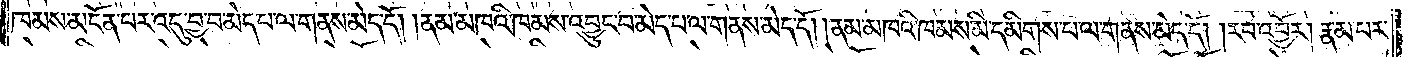ཁམས་མངོན་པར་འདུ་བྱ་བ་མེད་པ་ལ་གནས་མེད་དོ། །ནམ་མཁའི་ཁམས་འབྱུང་བ་མེད་པ་ལ་གནས་མེད་དོ། །ནམ་མཁའི་ཁམས་མི་དམིགས་པ་ལ་གནས་མེད་དོ། །རབ་འབྱོར། རྣམ་པར་
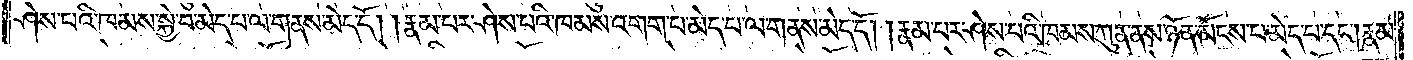ཤེས་པའི་ཁམས་སྐྱེ་བ་མེད་པ་ལ་གནས་མེད་དོ། །རྣམ་པར་ཤེས་པའི་ཁམས་འགག་པ་མེད་པ་ལ་གནས་མེད་དོ། །རྣམ་པར་ཤེས་པའི་ཁམས་ཀུན་ནས་ཉོན་མོངས་པ་མེད་པ་དང༌། རྣམ་
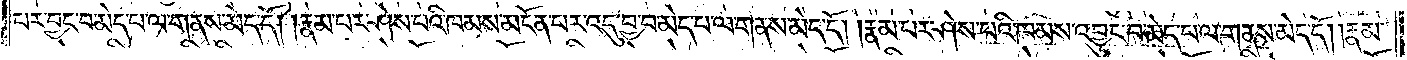པར་བྱང་བ་མེད་པ་ལ་གནས་མེད་དོ། །རྣམ་པར་ཤེས་པའི་ཁམས་མངོན་པར་འདུ་བྱ་བ་མེད་པ་ལ་གནས་མེད་དོ། །རྣམ་པར་ཤེས་པའི་ཁམས་འབྱུང་བ་མེད་པ་ལ་གནས་མེད་དོ། །རྣམ་
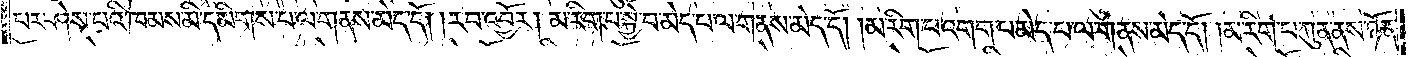པར་ཤེས་པའི་ཁམས་མི་དམིགས་པ་ལ་གནས་མེད་དོ། །རབ་འབྱོར། མ་རིག་པ་སྐྱེ་བ་མེད་པ་ལ་གནས་མེད་དོ། །མ་རིག་པ་འགག་པ་མེད་པ་ལ་གནས་མེད་དོ། །མ་རིག་པ་ཀུན་ནས་ཉོན་
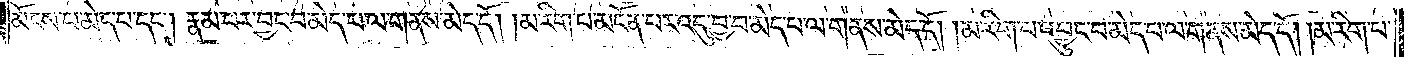མོངས་པ་མེད་པ་དང༌། རྣམ་པར་བྱང་བ་མེད་པ་ལ་གནས་མེད་དོ། །མ་རིག་པ་མངོན་པར་འདུ་བྱ་བ་མེད་པ་ལ་གནས་མེད་དོ། །མ་རིག་པ་འབྱུང་བ་མེད་པ་ལ་གནས་མེད་དོ། །མ་རིག་པ་
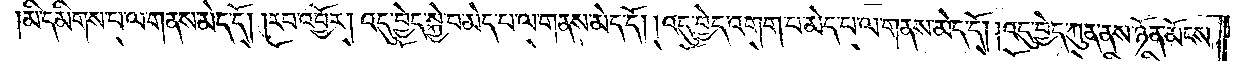མི་དམིགས་པ་ལ་གནས་མེད་དོ། །རབ་འབྱོར། འདུ་བྱེད་སྐྱེ་བ་མེད་པ་ལ་གནས་མེད་དོ། །འདུ་བྱེད་འགག་པ་མེད་པ་ལ་གནས་མེད་དོ། །འདུ་བྱེད་ཀུན་ནས་ཉོན་མོངས་
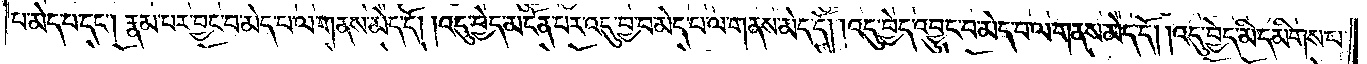པ་མེད་པ་དང༌། རྣམ་པར་བྱང་བ་མེད་པ་ལ་གནས་མེད་དོ། །འདུ་བྱེད་མངོན་པར་འདུ་བྱ་བ་མེད་པ་ལ་གནས་མེད་དོ། །འདུ་བྱེད་འབྱུང་བ་མེད་པ་ལ་གནས་མེད་དོ། །འདུ་བྱེད་མི་དམིགས་པ་
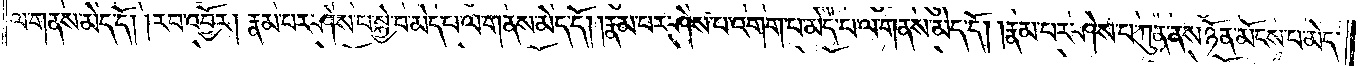ལ་གནས་མེད་དོ། །རབ་འབྱོར། རྣམ་པར་ཤེས་པ་སྐྱེ་བ་མེད་པ་ལ་གནས་མེད་དོ། །རྣམ་པར་ཤེས་པ་འགག་པ་མེད་པ་ལ་གནས་མེད་དོ། །རྣམ་པར་ཤེས་པ་ཀུན་ནས་ཉོན་མོངས་པ་མེད་
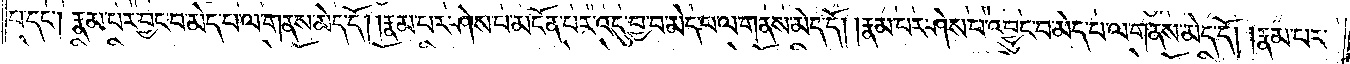པ་དང༌། རྣམ་པར་བྱང་བ་མེད་པ་ལ་གནས་མེད་དོ། །རྣམ་པར་ཤེས་པ་མངོན་པར་འདུ་བྱ་བ་མེད་པ་ལ་གནས་མེད་དོ། །རྣམ་པར་ཤེས་པ་འབྱུང་བ་མེད་པ་ལ་གནས་མེད་དོ། །རྣམ་པར་
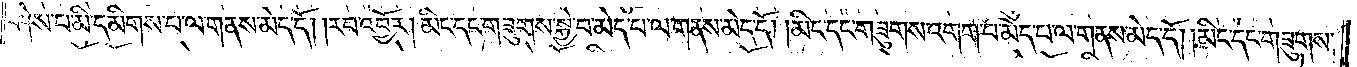ཤེས་པ་མི་དམིགས་པ་ལ་གནས་མེད་དོ། །རབ་འབྱོར། མིང་དང་གཟུགས་སྐྱེ་བ་མེད་པ་ལ་གནས་མེད་དོ། །མིང་དང་གཟུགས་འགག་པ་མེད་པ་ལ་གནས་མེད་དོ། །མིང་དང་གཟུགས་
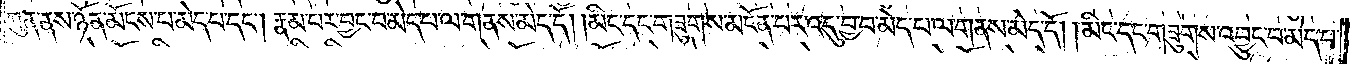ཀུན་ནས་ཉོན་མོངས་པ་མེད་པ་དང༌། རྣམ་པར་བྱང་བ་མེད་པ་ལ་གནས་མེད་དོ། །མིང་དང་གཟུགས་མངོན་པར་འདུ་བྱ་བ་མེད་པ་ལ་གནས་མེད་དོ། །མིང་དང་གཟུགས་འབྱུང་བ་མེད་པ་
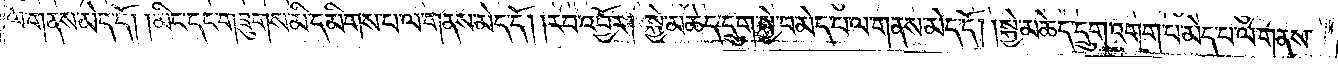ལ་གནས་མེད་དོ། །མིང་དང་གཟུགས་མི་དམིགས་པ་ལ་གནས་མེད་དོ། །རབ་འབྱོར། སྐྱེ་མཆེད་དྲུག་སྐྱེ་བ་མེད་པ་ལ་གནས་མེད་དོ། །སྐྱེ་མཆེད་དྲུག་འགག་པ་མེད་པ་ལ་གནས་
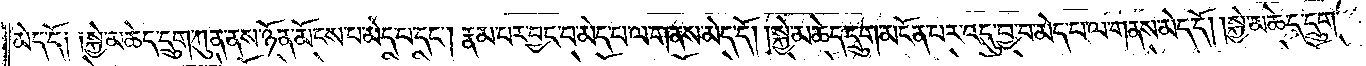མེད་དོ༑ ༑སྐྱེ་མཆེད་དྲུག་ཀུན་ནས་ཉོན་མོངས་པ་མེད་པ་དང༌། རྣམ་པར་བྱང་བ་མེད་པ་ལ་གནས་མེད་དོ། །སྐྱེ་མཆད་དྲུག་མངོན་པར་འདུ་བྱ་བ་མེད་པ་ལ་གནས་མེད་དོ། །སྐྱེ་མཆེད་དྲུག་
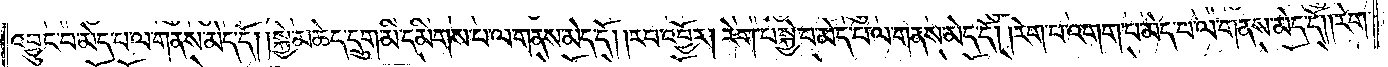འབྱུང་བ་མེད་པ་ལ་གནས་མེད་དོ། །སྐྱེ་མཆེད་དྲུག་མི་དམིགས་པ་ལ་གནས་མེད་དོ། །རབ་འབྱོར། རེག་པ་སྐྱེ་བ་མེད་པ་ལ་གནས་མེད་དོ། །རེག་པ་འགག་པ་མེད་པ་ལ་གནས་མེད་དོ། །རེག་
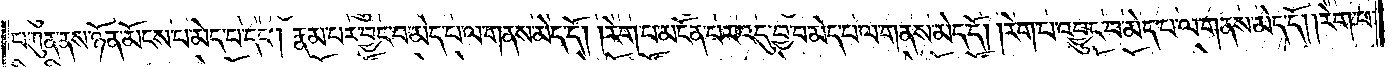པ་ཀུན་ནས་ཉོན་མོངས་པ་མེད་པ་དང༌། རྣམ་པར་བྱང་བ་མེད་པ་ལ་གནས་མེད་དོ། །རེག་པ་མངོན་པར་འདུ་བྱ་བ་མེད་པ་ལ་གནས་མེད་དོ། །རེག་པ་འབྱུང་བ་མེད་པ་ལ་གནས་མེད་དོ། །རེག་པ་
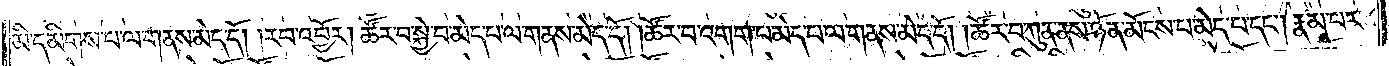མི་དམིགས་པ་ལ་གནས་མེད་དོ། །རབ་འབྱོར། ཚོར་བ་སྐྱེ་བ་མེད་པ་ལ་གནས་མེད་དོ། །ཚོར་བ་འགག་པ་མེད་པ་ལ་གནས་མེད་དོ། །ཚོར་བ་ཀུན་ནས་ཉོན་མོངས་པ་མེད་པ་དང༌། རྣམ་པར་
